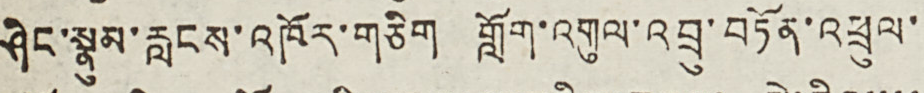ཤིང་སྣུམ་རླངས་འཁོར་གཅིག གློག་འགུལ་འབྲུ་བཏོན་འཕྲུལ་
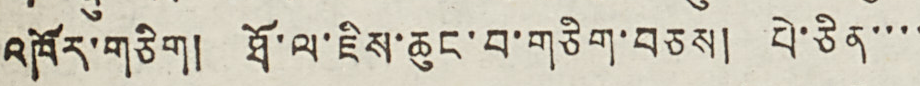འཁོར་གཅིག། ཐོ་ལ་ཇིས་ཆུང་བ་གཅིག་བཅས། པེ་ཅིན་་་་
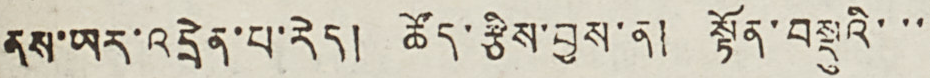ནས་ཡར་འདྲེན་པ་རེད། ཚོད་རྩིས་བྱས་ན། སྟོན་བསྡུའི་་་
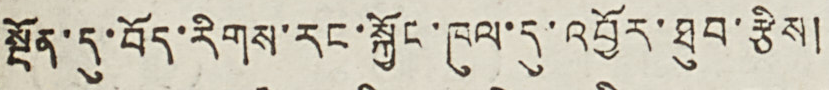སྔོན་དུ་བོད་རིགས་རང་སྐྱོང་ཁུལ་དུ་འབྱོར་ཐུབ་རྩིས།
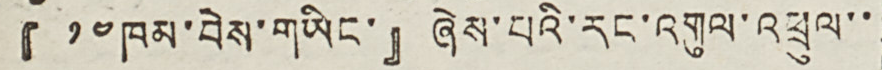『 ༡༤ ཁམ་བེས་གཡིང་』ཞེས་པའི་རང་འགུལ་འཕྲུལ་་
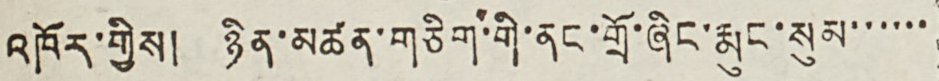འཁོར་གྱིས། ཉིན་མཚན་གཅིག་གི་ནང་གྲོ་ཞིང་རྨུང་སུམ་་་་་་
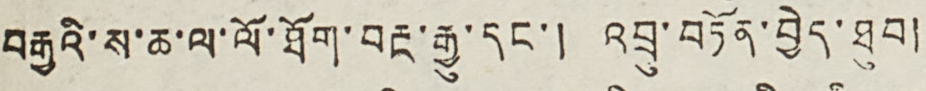བརྒྱའི་ས་ཆ་ལ་ལོ་ཐོག་བརྔ་རྒྱུ་དང་། འབྲུ་བཏོན་བྱེད་ཐུབ།
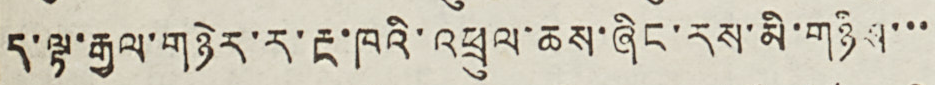ད་ལྟ་རྒྱལ་གཉེར་ར་རྔ་ཁའི་འཕྲུལ་ཆས་ཞིང་རས་མི་གཉིས་་་
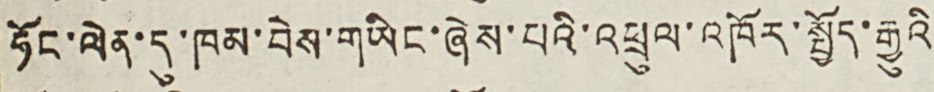ཧོང་ལེན་དུ་ཁམ་བེས་གཡིང་ཞེས་པའི་འཕུལ་འཁོར་སྤྱོད་རྒྱུའི
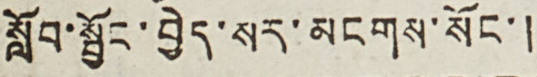སློབ་སྦྱོང་བྱེད་སར་མངགས་སོང་།
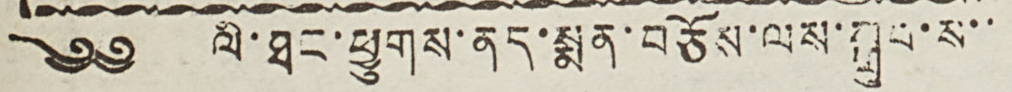༄༅ མི་ཐང་ཕྱུགས་ནད་སྨན་བཅོས་ལས་སྒྲུབ་ས་་
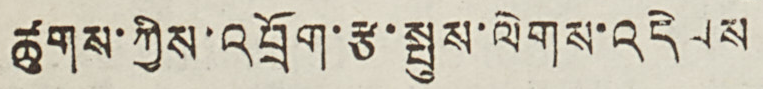ཚུགས་ཀྱིས་འབྲོག་རྩ་སྤུས་ལེགས་འདེབས
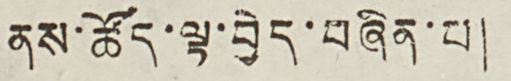ནས་ཚོད་ལྟ་བྱེད་བཞིན་པ།
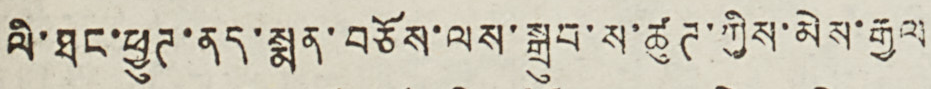ལི་ཐང་ཕྱུཊ་ནད་སྨན་བཅོས་ལས་སྒྲུབ་ས་ཚུཊ་ཀྱིས་མེས་རྒྱལ
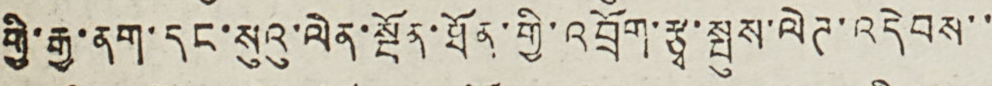གྱི་རྒྱ་ནག་དང་སུའུ་ལེན་སྔོན་ཐོན་གྱི་འབྲོག་རྩྭ་སྤུས་ལེཊ་འདེབས་་
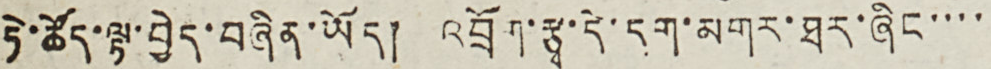ཏེ་ཚོད་ལྟ་བྱེད་བཞིན་ཡོད། འབྲོག་རྩྭ་དེ་དག་མགར་ཐར་ཞིང་་་་
